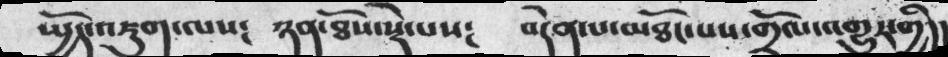སྤྱོད་འཇུག་ལས༴ ཉན་ཐོས་སྡེ་པས༴ བདེན་པ་མཐོང་པས་གྲོལ་འགྱུར་གྱི།།
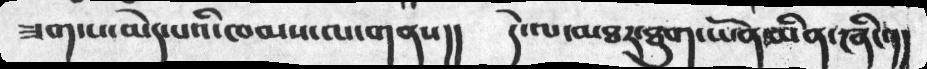ཟག་པ་མེད་པའི་ཁམས་ལ་གནས།། དེ་ལ་མཐར་ཐུག་ཡོན་མིན་ཞིང་།།
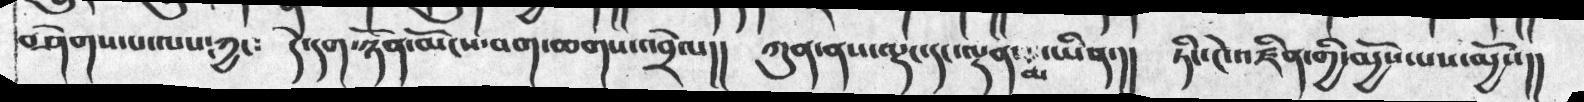བཤེགས་པ་ལས་ཀྱང༴ དེ་དག་ཉོན་མོངས་བག་ཆགས་འབྲེལ།། ཀུན་ནས་ལྡང་དང་ལྡན་མ་ཡིན་།།  ཏིང་ངེ་འཛིན་གྱི་མྱོས་པས་མྱོས།།
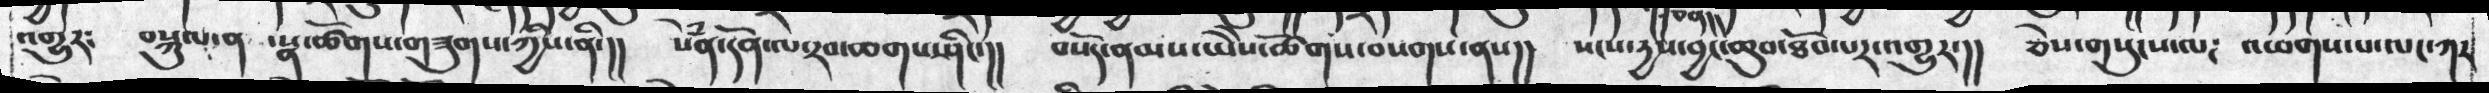འགྱུར༴  བསྐུལ་ན  ་སྣ་ཚོགས་གཟུགས་ཀྱིས་ནི་།། སེྃན་དོན་ལ་རབ་ཆགས་ཤིང་།།  བསོད་ནམས་ཡེེས་ཚོགས་བསགས་ནས།།  སངས་རྒྱས་བྱང་ཆུབ་ཐོབ་པར་འགྱུར་།།  ཅེས་གསུངས་ལ༴  འཕགས་པ་ལང་ཀར
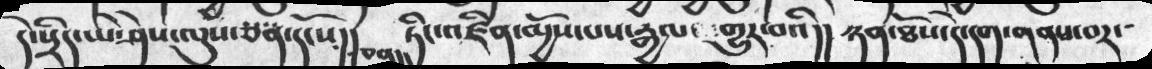དེ་སྲིད་ཡེ་ཤེས་ལུས་ཅན་དངོས།།  ཏིང་འཛིན་མྱོས་པས་རྒྱལ་འགྱུར་བའི།། ཉན་ཐོས་དེ་དག་གནས་བར་
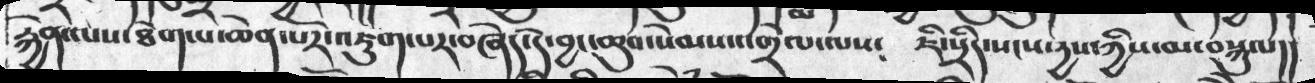རྐྱེན་ལས་ཐེག་པ་ཆེན་པོར་འཇུག་པར་བཞེད་དེ་བྱང་ཆུབ་སེམས་འགྲེལ་ལས༴  ཇི་སྲིད་སངས་དྱས་ཀྱིས་མ་བསྐུལ།།
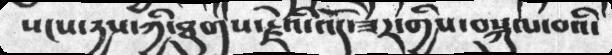སངས་རྱས་ཀྱི་ཐུགས་རྗེའི་འོད་ཟེར་གྱིས་བསྐུལ་བའི་
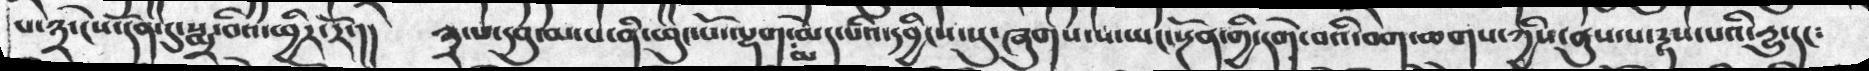པ་༣་ངེས་དོན་དུ་སྨྲ་བའི་ཕྱིར་རོ་།།  ༣་པ་དབུ་མ་པ་ནི་ཕུང་པོ་ལྷག་མ་མེད་པའི་དབྱིངས་སུ་ཞུགས་པ་ཡང་སྔོན་གྱི་དགེ་བའི་བག་ཆགས་ཀྱིས་ནུས་པ་རྟས་པའི་དྱུ་དང༴
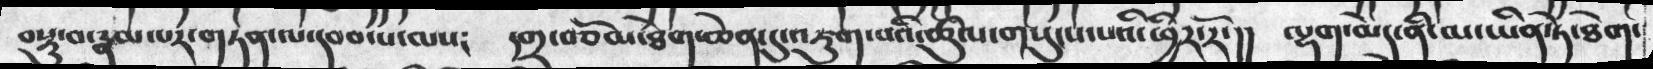བསྡུ་བ་རྣམ་པར་གཏན་ལ་དབབ་པ་ལས༴  དགྲ་བཅོམ་ཐེག་ཆེན་དུ་འཇུག་པའི་ཚུལ་གསུངས་པའི་ཕྱིར་རོ་།།  ལྷག་མེད་ནི་མ་ཡིན་ཏེ་ཐེག་
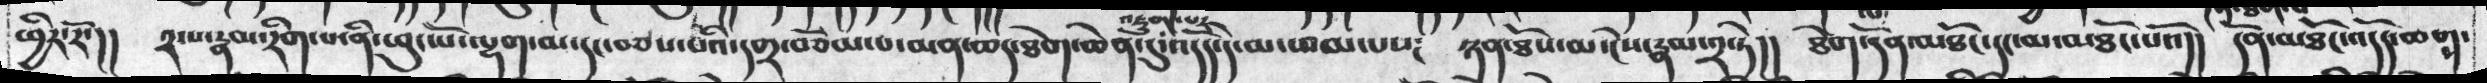ཕྱིར་རོ་།།  ༢་པ་རྣམ་རིག་པ་ནི་ཕུང་པོ་ལྷག་མ་དང་བཅས་པའི་དགྲ་བཅོམ་པ་མན་ཆད་ཐེག་ཆེན་དུ་འཇུག་པར་འདོད་དེ་མ་ཕམ་པས༴ ཉན་ཐོས་མ་ངེས་རྣམ་༢་ཏེ།།  ཐེག་དོན་མཐོང་དང་མ་མཐོང་པའོ།།  དོན་མཐོང་འདོད་ཆགས་
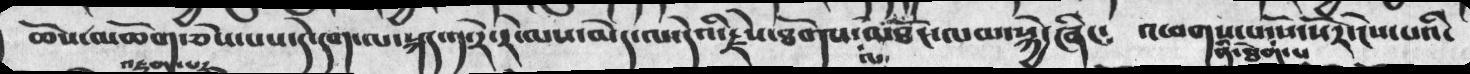ཆོས་མཆོག་ཅེས་པས་དེ་དག་ལ་སྐད་༡་རེ་རེ་ལས་མེད་ལ་དེའི་རྗེས་ཐོགས་ལ་མཐོང་ལམ་སྐྱེ་ཞིང༴    འཕགས་པ་ནི་ཐེག་པ་སོ་སོར་ངེས་པའི་
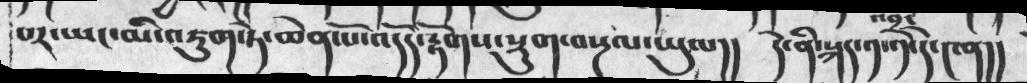པར་ཡང་མི་འཇུག་ཏེ་ཆེན་པོ་འདོད་རྟོགས་སྡུག་བསྔལ་ཡུལ།།  དེ་ནི་སྐད་༡་༡དེ་༤ན།།
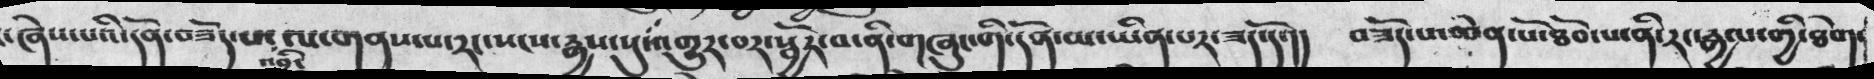་ཞེས་པའི་དོན་བཟོད་པ་འབྲི་ལ་གནས་པར་རང་སངས་རྒྱས་སུ་འགྱུར་བར་སྦྱོར་བ་ནི་གཞུང་གི་དོན་མ་ཡིན་པར་ཟད་དོ་།།  བཟོད་པ་ཆེན་པོ་ཐོབ་པ་ནི་རང་རྒྱལ་གྱི་ཐེག་
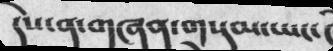དེས་ན་གཞན་གསུམ་ཡང་
